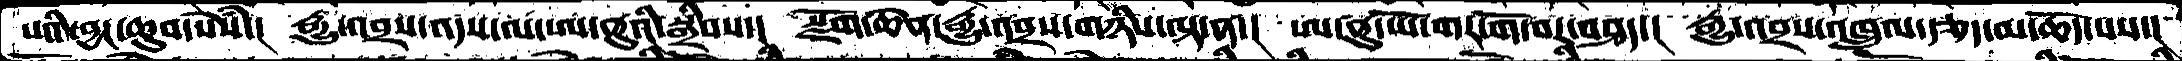པའི་བྱང་ཆུབ་སེཾས་།  རྒྱུ་འབྲས་འདས་ལ་ཨ་ནུའི་སྒྲིབས་།  སྫོག་ཆེན་རྒྱུ་འབྲས་གཉིས་ལྟ་ན་།  ཨ་ནུ་ཡོ་གར་གོ་བར་བཤད་།  རྒྱུ་འབྲས་འཁྲུལ་རྩད་མ་ཆོད་པས་།
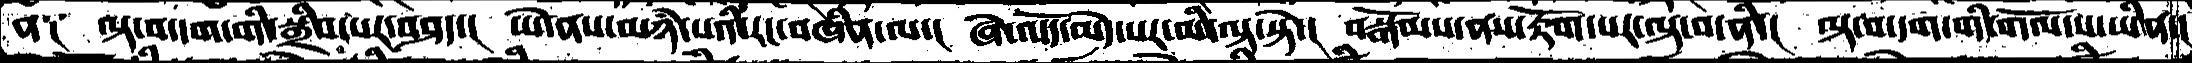ན༑  ལྟ་བ་དག་གི་སྒྲིབ་པར་བཤད་།  ཡེ་ནས་མཉཾ་པའི་རང་བཞིན་ལ་།  ཞེ་འདོད་མེད་པར་མི་ལྟ་སྟེ་།  བསྒོམས་ནས་རྟོག་པར་ལྟ་བ་ནི་།  ལྟ་བ་དག་གི་གོལ་ས་ཡིན་།
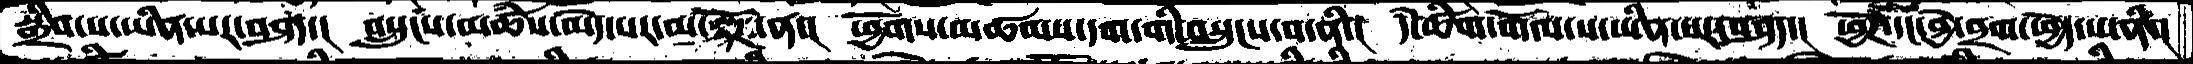སྒྲིབ་པ་ཡིན་པར་བཤད་།  བསྲུངས་མཚཾས་མེད་པར་མ་རྟོཌ་ན་།  ཕྱོགས་མཚམས་དག་གི་བསྲུངས་བ་ནི་།  དཾ་ཚིག་གོལ་ས་ཡིན་པར་བཤད་།  ཕྱོཌ་དང་བྱེ་བྲག་ཕྱེད་པ་ནི་།
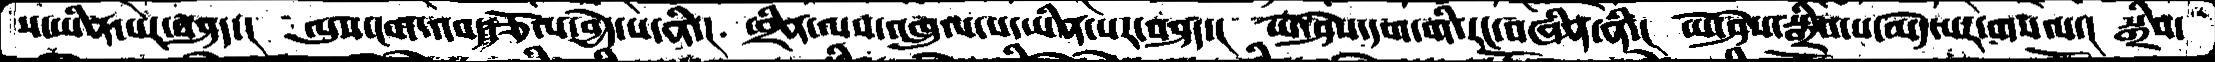ས་ཡིན་པར་བཤད་།  ལུས་ངག་འབད་རྩོལ་བྱེད་པ་ནི་།  ཕྲིན་ལས་འཁྲུལ་པ་ཡིན་པར་བཤད་།  ཡེ་ཤེས་དག་གི་རང་བཞིན་ནི་།  ཡེ་ཤེས་སྒྲིབ་པ་མེད་པར་གསལ་།  སྒྲིབ་
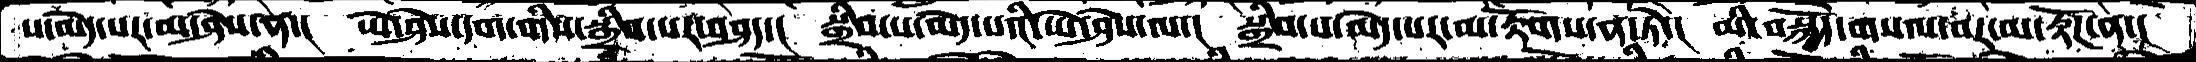པ་མེད་པར་མ་ཤེས་ན་།  ཡེ་ཤེས་དག་གིས་སྒྲིབ་པར་བཤད་།  སྒྲིབ་པ་མེད་པའི་ཡེ་ཤེས་ལ་།  སྒྲིབ་པ་མེད་པར་མ་རྟོགས་ན་ཏེ་།  མི་བསྐྱོད་གསལ་བར་མ་རྟོཌ་ན་།
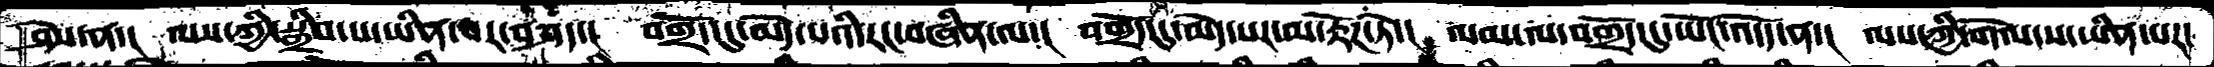ཤེས་ན་།   ལས་ཀྱི་སྒྲིབ་པ་ཡིན་པར་བཤད་།  བགྲོད་དུ་མེད་པའི་རང་བཞིན་ལ་།  བགྲོད་དུ་མེད་པར་མ་རྟོཌ་ཏེ་།  ལམ་ལ་བགྲོད་དུ་ཡོང་འདོད་ན་།  ལས་ཀྱི་གོལ་ས་ཡིན་པར་
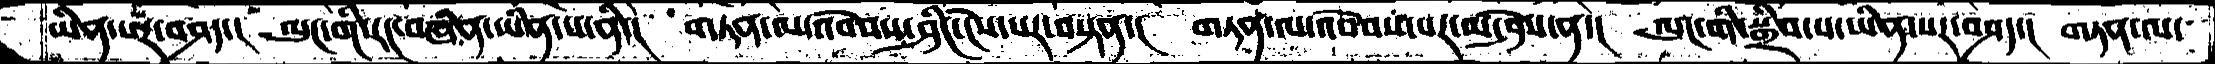ཡིན་པར་བཤད་།  ལུང་གི་རང་བཞིན་ཡིན་པ་ནི་།  གཏན་ལ་འབེབས་ཤིང་ངེས་པར་བསྟན་།  གཏན་ལ་འབེབས་པར་མ་ཤེས་ན་།  ལུང་གི་སྒྲིབ་པ་ཡིན་པར་བཤད་།  གཏན་ལ་
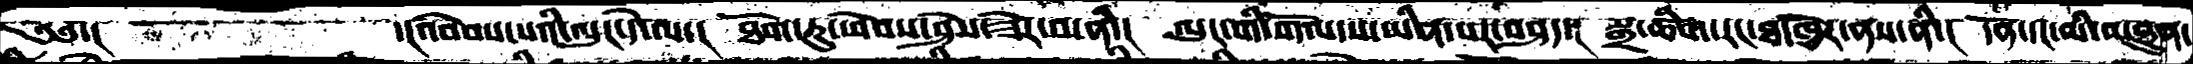༄༅་།       ་།འབེབས་པའི་ལུང་དེ་ལ་།  ཐོག་ཏུ་ཕེབས་ཤེས་ཟེར་བ་ནི་།  ལུང་གི་གོལ་ས་ཡིན་པར་བཤད་།  སྒྲ་ཚིག་རང་ཐ་ཁྱེར་ནས་ནི་།  དོན་དང་མི་མཐུན་
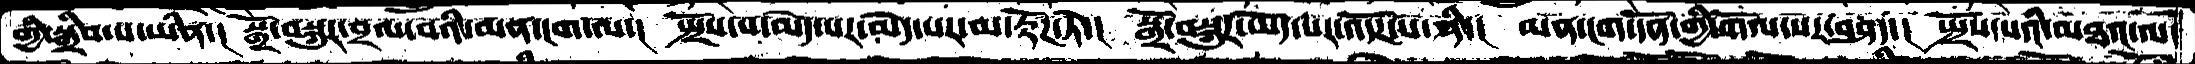གྱི་སྒྲིབ་པ་ཡིན་།   སྒྲོ་བསྐུར་བྲལ་བའི་མན་ངག་ལ་།  སྤྲོས་པ་མེད་པར་མ་རྟོཌ་ཏེ་།  སྒྲོ་བསྐུར་ཡོད་པར་འདོཌ་པ་ནི་།  མན་ངག་དོན་གྱི་གོལ་སར་བཤད་།  སྤྲོས་པའི་མཐའ་ལ་
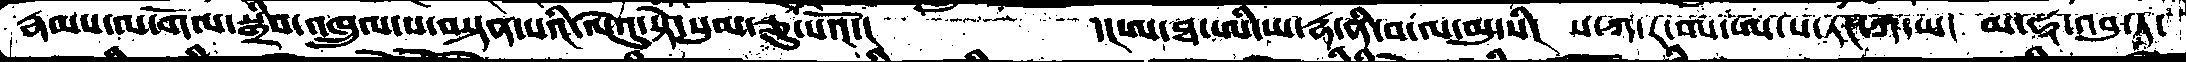རྣམས་ལ་གོལ་སྒྲིབ་འཁྲུལ་པ་བསྟན་པའི་ལེའུ་སྟེ་སུམ་ཅུ་པའོ་།          ་།ཨ་ཐ་ཨི་ཡ་དྷ་ནི་བ་ལ་མུ་སི།  ས་ཀ་ར་བས་ཨ་ས་ཏང་ཀ་ཡ།  མ་ཧཱ་འབུ་ཏ་
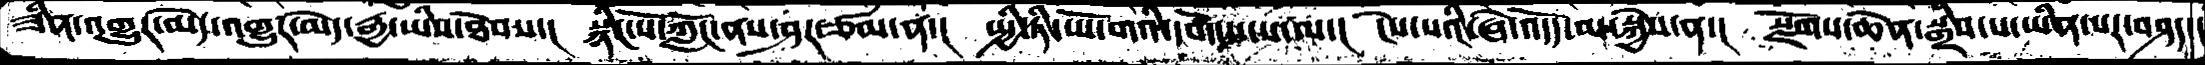ཟིན་འགྱུར་མེད་འགྱུར་མེད་རྒྱ་ཡིས་ཐོབས་།  སྙིང་པོ་ཀློང་ནས་ཤར་ཙམ་ན་།  སྤྱི་ཏི་ཡོ་གའི་དགོངས་པ་ལ་།  ངེས་པའི་ཞེ་འདོད་མ་སྐྱེས་ན་།  སྫོགས་ཆེན་སྒྲིབ་པ་ཡིན་པར་བཤད་།
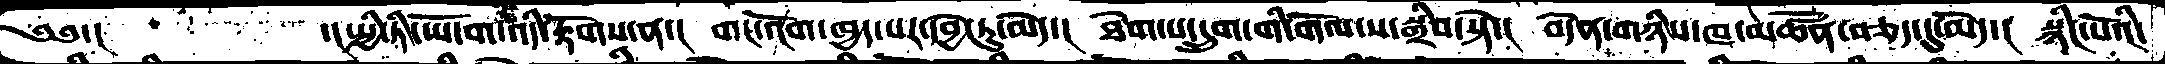༄༅་།          ་།སྤྱི་ཏི་ཡོ་ག་འདི་རྟོགས་ན་།  གང་འོག་ཁྱད་པར་དབྱེ་རུ་མེད་།  ཐེག་པ་དྲུག་གི་གོལ་ས་སྒྲིབ་སྟེ་།  བདེན་གཉིས་ཁ་མཚོན་བཅད་དུ་མེད་།  སྙིང་པོའི་
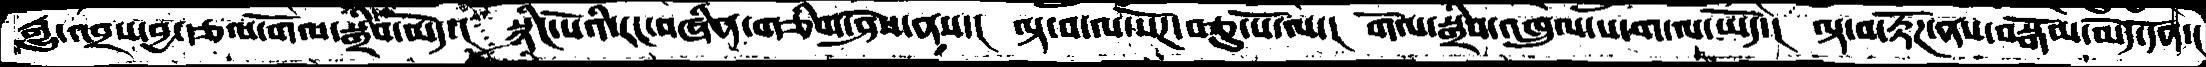རྒྱུ་འབྲས་བྱ་རྩལ་གོལ་སྒྲིབ་མེད་།  སྙིང་པོའི་རང་བཞིན་གཅིག་ཤེས་ནས་།  ལྟ་བ་ལ་སོཌ་བཅུ་པོ་ལ་།  གོལ་སྒྲིབ་འཁྲུལ་པ་ག་ལ་ཡོད་།  ལྟ་བ་རྟོཌ་ནས་བསྒོམ་མེད་དོན་།
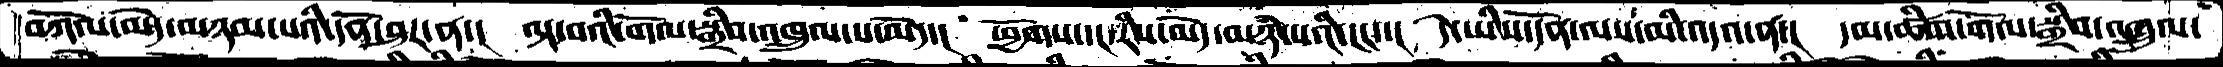བཀོལ་མེད་མཉམ་པའི་དོན་ཤར་ན་།  ལྟ་བའི་གོལ་སྒྲིབ་འཁྲུལ་པ་མེད་།  ཕྱོགས་དང་རིས་མེད་མཉཾ་པའི་ངང་་།  དེ་ཡིས་དོན་ལས་མི་འདའ་ན་།  དམ་ཚིག་གོལ་སྒྲིབ་འཁྲུལ་
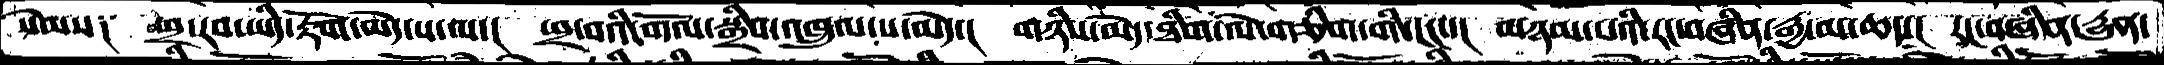སེམས༑  ཕྲ་རབ་ཡིད་རྟོག་མེད་པ་ལ་།  ཕྲ་བའི་གོལ་སྒྲིབ་འཁྲུལ་པ་མེད་།  གཉིས་མེད་ཐིག་ལེ་གཅིག་གི་ངང་་།  མཉམ་པའི་རང་བཞིན་རྒྱ་མ་ཆད་།  རང་བཞིན་དྱུན་
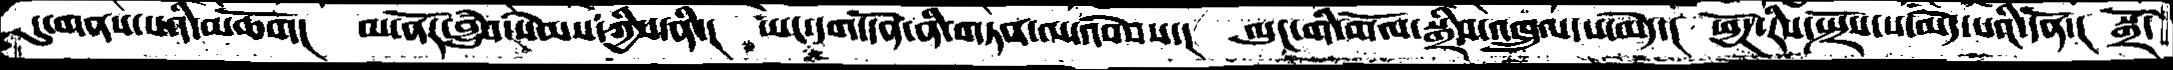དུ་གནས་པའི་མཆོག།  མ་ནོར་བྱུཾབ་སེམས་ཀྱིས་ནི་།  ཡང་དག་དོན་ནི་གཏན་ལ་འབེབས་།  ལུང་གི་གོལ་སྒྲིབ་འཁྲུལ་པ་མེད་།  ཕྱོཌ་རིས་སྤྲོས་པ་མེད་པའི་དོན་།  སྒྲོ་
